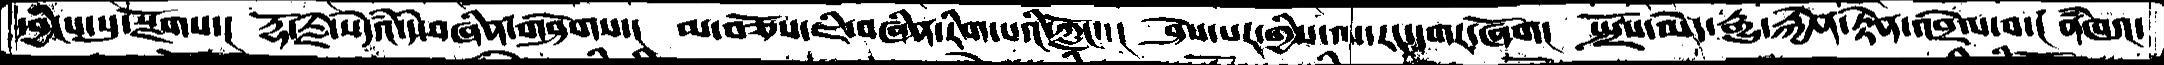དབྱིངས་སུ་སྫོགས་།  རྡོ་རྗེ་སེདའཾ་དེ་བཞིན་གཤེགས་།   མ་བཅོས་ཇི་བཞིན་རིག་པའི་ཀློང་་།  ཤེས་པར་གྱིས་ལ་རང་དགར་ཞོག།   སྤྲོས་མེད་རྒྱུ་རྐྱེན་རྟེན་འབྲེལ་བ་།  ནཾཁའ་
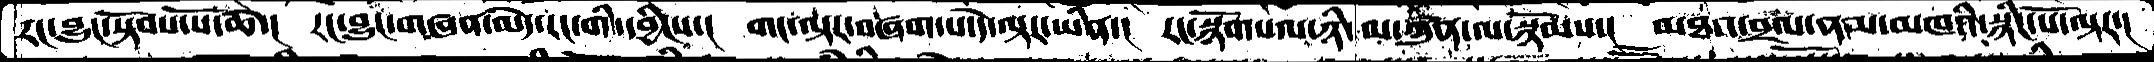རང་བྱུང་སྟོབས་པོ་ཆེ་།  རང་བྱུང་གཞན་མེད་རང་གི་དབྱིངས་།  གང་ལྟར་བཞག་པ་དེ་ལྟར་ཡིན་།  རང་སྙོགསལ་ཉི་མ་ཀུན་ལ་སྙོམས་།  མཐའ་བྲལ་ནམ་མཁའི་སྙིང་པོ་ལྟར་།
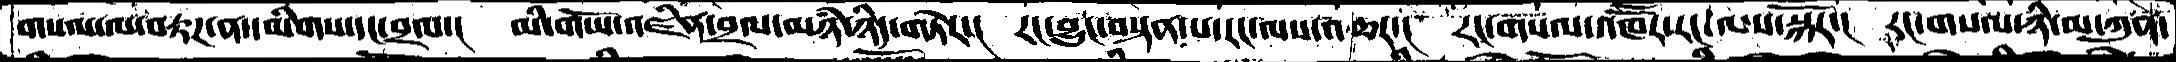གསལ་ལ་བརྟཌ་ན་དམིགས་དང་བྲལ་།  མི་གཡོ་འཛིན་བྲལ་མཉཾ་ཉིད་གཏེར་།  རང་བྱུང་བསྟན་པ་རང་ལས་འཆར་།  རང་གསལ་འཁཽར་རང་ལས་སྐོར་།  རང་གསལ་ཉི་མ་ཀུན་
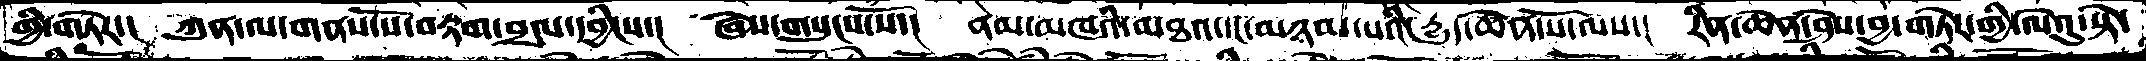གྱི་གཏེར་།  ཀུན་ལ་གནས་སོ་བརྟག་བྲལ་དབྱིངས་།  ཞེས་གསུངས་སོ་།  ནམ་མཁའི་མཐའ་དང་མཉམ་པའི་དྱུད་ཆེན་པོ་ལས་།  རིན་ཆེན་ཤེས་བྱ་གཏེར་གྱི་ལེའུ་སྟེ་
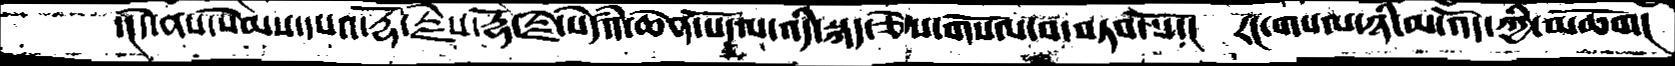་།དེ་ནས་སེམས་དཔའ་རྡོ་རྗེས་རྡོ་རྗེ་སེདཾའ་ཆེན་པོ་ལ་འདི་སྐད་ཅེས་གསོལ་བ་བཏབ་སོ་།  རང་གསལ་ཉི་མ་འོད་ཀྱི་མཆོག།
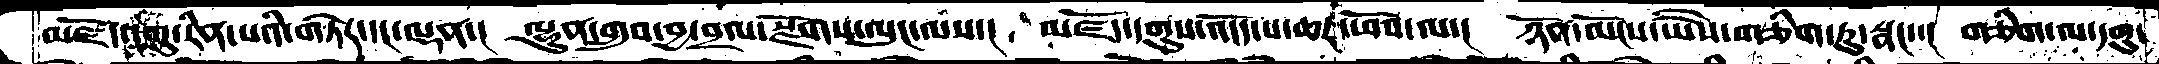མཛོད་དགུ་རིན་པའི་གཏེར་དང་ལྡན་།  ལྷུན་གྲུབ་བྱ་བྲལ་སྫོགས་ལུང་ལས་།  མཛོད་དགུས་འདོད་པ་ཆར་ཕོབ་ལ་།  ཉོན་མོངས་ཡཻས་གཅིག་ཏུ་སྣང་་། གཅིག་ལ་དགུ་
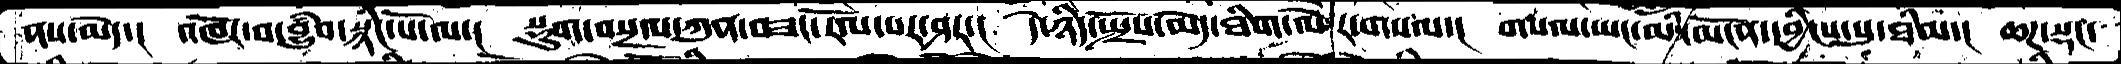ནས་མེད་།  འཁོར་བ་བྱུཾབ་སྙིང་པོ་ལ་།  སྡུག་བསྔལ་ཀུན་བཟང་རོལ་པར་ཤར་།  དེ་ཉིད་སྤྲོས་མེད་ཐིག་ལེར་གསལ་།  གསལ་ཡང་མི་མངོན་དབྱིངས་སུ་ཐིམ་།  ཆཌ་སྡང་
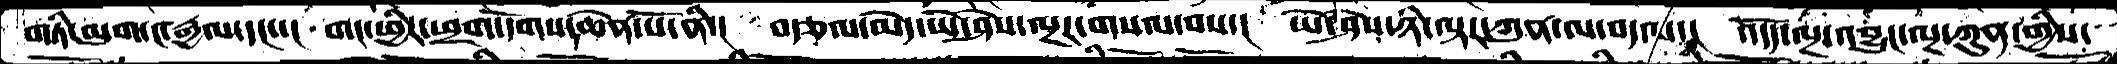གཏི་མུག་ང་རྒྱལ་དང་་།  གང་ཕྱིར་ཕྲག་དོགས་ཆེན་པོ་ནི་།  བརྩལ་མེད་ཡེ་ཤེས་ལྔར་གསལ་བས་།  ཡེ་ཤེས་ཉི་ལྟར་ཀུན་ལ་བདལ་།  འདོད་ལྔ་འབྱུང་ལྔ་ཀུན་གྱིས་
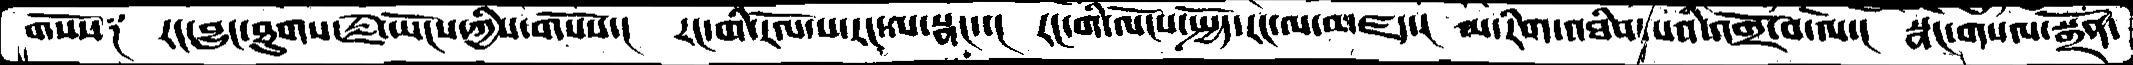གསོས༑   རང་བྱུང་ཐུགས་རྗེ་ཡོངས་ཀྱིས་གསོས་།  རང་གི་རོལ་པ་རང་ལ་སྣང་་།  རང་གི་ལོངས་སྤྱོད་རང་ལ་མཛད་།  མ་རིག་འཐིབ་པའི་འགྲོ་བ་ལ་།  སྣང་གསལ་སྒྲོན་
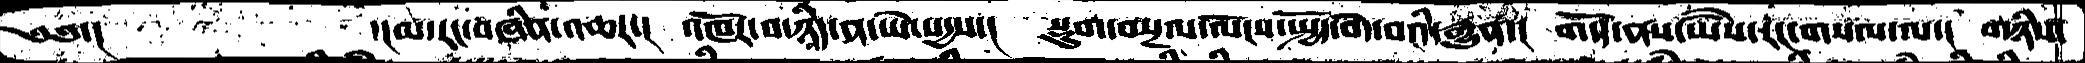༄༅་།        ་།མ་རང་བཞིན་འཆར་།   འཁོར་བ་ཉིད་ན་ཡེ་སདྱས་།   སྡུག་བསྔལ་ལོངས་སྤྱོད་བདེ་བའི་རྒྱུན་།  གདོད་ནས་ཡཻས་རང་གསལ་ལ་།  གཉིས་
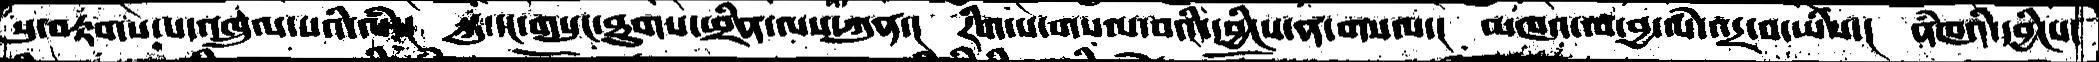སུ་བརྟགས་པ་འཁྲུལ་པའི་ལཾ་།  སྐུ་དང་གསུང་ཐུགས་ཕྲིན་ལས་ཀུན་།  རིག་པ་གསལ་བའི་དབྱིངས་ན་གསལ་།  མཁའ་ལ་བྱ་ལཾ་འདྲ་བ་ཡིས་།  ནཾཁའི་དབྱིངས་
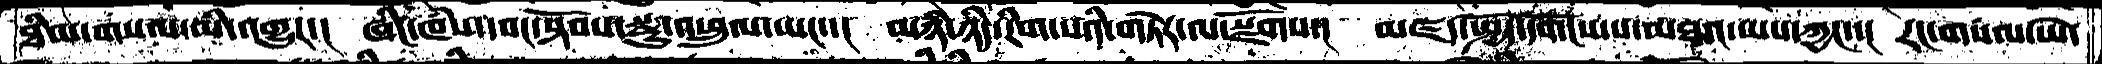ཐིམ་གསལ་མི་འགྱུར་།  ཞིང་ཁཾས་དབང་སྟོབས་སྫུ་འཕྲུལ་ཡང་་།  མཉཾ་ཉིད་རིག་པའི་གཏེར་ལ་སྫོགས་།  མཛད་སྤྱོད་དགོངས་པ་མཐའ་ཡས་ཀྱང་་།  རང་གསལ་ཡེ་
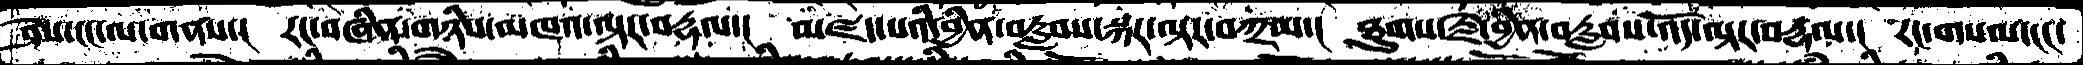ཤེས་ངང་ལ་གནས་།  རང་བཞིན་གཉིས་མཁའ་ལྟར་བརྡལ་།  མཛད་པའི་བྱིན་བརླབས་སྐར་ལྟར་བཀྲམ་།  ཐུགས་རྗེ་བྱིན་བརླབས་འོད་ལྟར་བརྡལ་།  རང་གསལ་ངང་
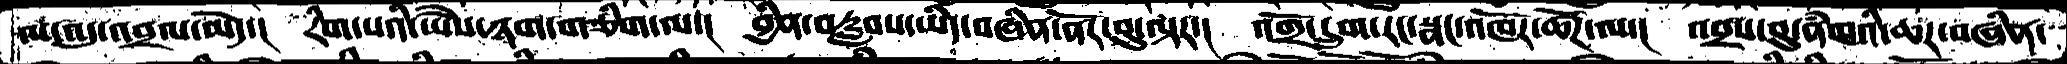ལ་འདུ་འབྲལ་མེད་།  རིག་པའི་ཡཻས་ཉག་གཅིག་ལ་།  བྱིན་བརླབས་ཡིད་བཞིན་ནོར་བུ་ལྟར་།  འགྲོ་དྲུག་རང་སྣང་འཁོར་ཚོཌ་ལ་།  འབྲས་བུ་ནཾཁའི་ཆར་བཞིན་
